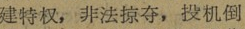建特权，非法掠夺，投机倒
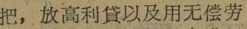把，放高利貸以及用无偿劳
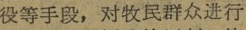役等手段，对牧民群众进行
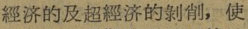經济的及超經济的剥削，使
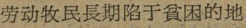劳动牧民長期陷于貧困的地
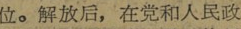位。解放后，在党和人民政
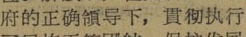府的正确領导下，貫彻执行
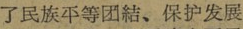了民族平等团結、保护发展
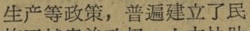生产等政坟，普遍建立了民
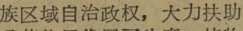族区域自治政权，大力扶助
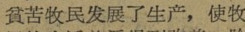貧苦牧民发展了生产，使牧
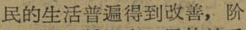民的生活普适得到改善，阶
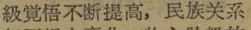級覚悟不断提高，民族关系
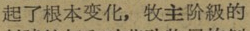起了根本变化，牧主阶級的
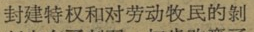封建特权和对劳动牧民的剝
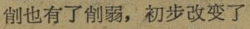削也有了削弱，初步改变了
